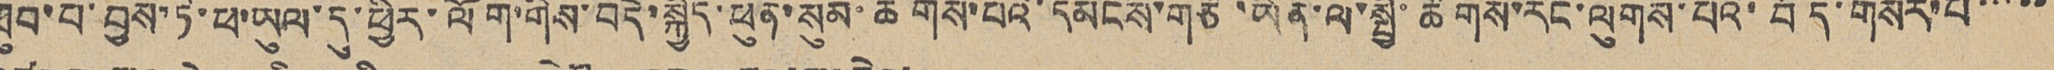ཐུབ་པ་བྱས་ཏེ་ཕ་ཡུལ་དུ་ཕྱིར་ལོག་གིས་བདེ་སྐྱིད་ཕུན་སུམ་ཚོགས་པའི་དམངས་གཙོ་ཡིན་ལ་སྤྱི་ཚོགས་རིང་ལུགས་པའི་བོད་གསར་པ་་་་་
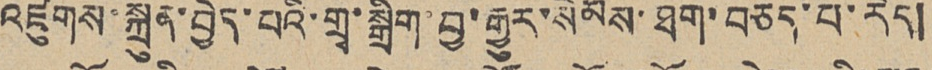འཛུགས་སྐྲུན་བྱེད་པའི་གྲྭ་སྒྲིག་བྱ་རྒྱུར་སེམས་ཐག་བཅད་པ་རེད།
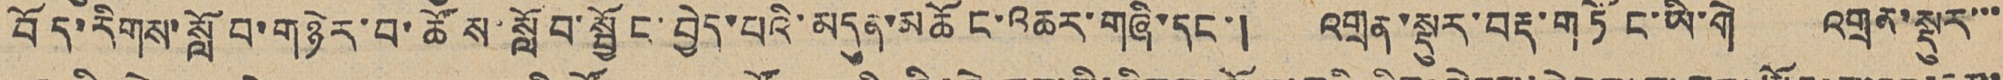བོད་རིགས་སློབ་གཉེར་བ་ཚོས་སློབ་སྦྱོང་བྱེད་པའི་མདུན་མཆོང་འཆར་གཞི་དང་། འགྲན་སྡུར་བརྡ་གཏོང་ཡི་གེ འགྲན་སྡུར་་་
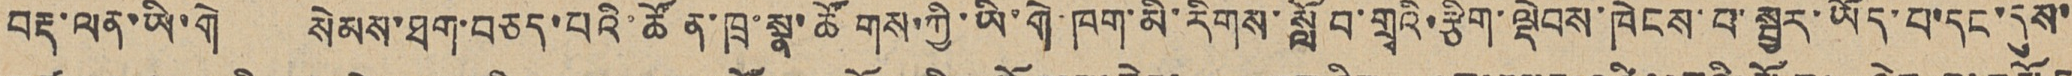བརྡ་ལན་ཡི་གེ སེམས་ཐག་བཅད་པའི་ཚོན་ཁྲ་སྣ་ཚོགས་ཀྱི་ཡི་གེ་ཁག་མི་རིགས་སློབ་གྲྭའི་རྩིག་ལྡེབས་ཁེངས་པ་སྦྱར་ཡོད་པ་དང་དུས་
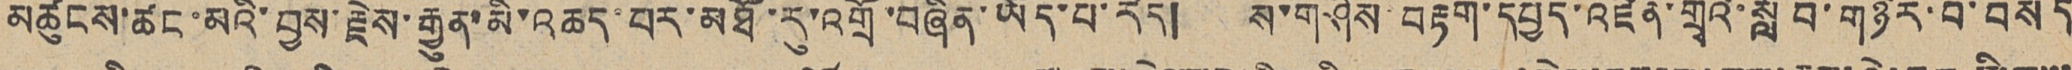མཚུངས་ཚང་མའི་བྱས་རྗེས་རྒྱུན་མི་འཆད་པར་མཐོ་རུ་འགྲོ་བཞིན་ཡོད་པ་རེད། ས་གཤིས་བརྟག་དཔྱད་འཛིན་གྲྭའི་སློབ་གཉེར་བ་བསོད
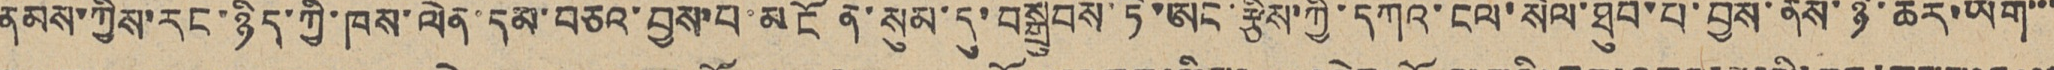ནམས་ཀྱིས་རང་ཉིད་ཀྱི་ཁས་ལེན་དམ་བཅའ་བྱས་པ་མངོན་སུམ་དུ་བསྒྲུབས་ཏེ་ཨང་རྩིས་ཀྱི་དཀའ་ངལ་སེལ་ཐུབ་པ་བྱས་ནས་ཉེ་ཆར་ཡིག་་་
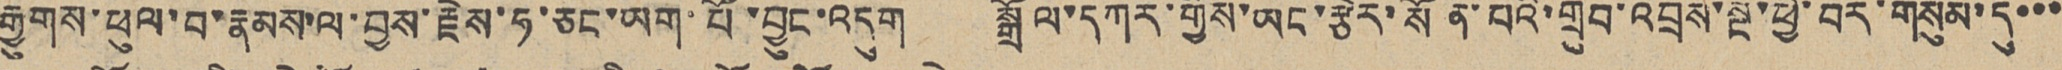རྒྱུགས་ཕུལ་བ་རྣམས་ལ་བྱས་རྗེས་ཧ་ཅང་ཡག་པོ་བྱུང་འདུག སྒྲོལ་དཀར་གྱིས་ཡང་རྩེར་སོན་པའི་གྲུབ་འབྲས་སྔ་ཕྱི་བར་གསུམ་དུ་་་
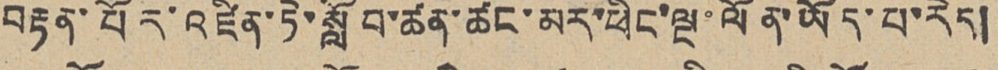བརྟན་པོར་འཛིན་ཏེ་སློབ་ཚན་ཚང་མར་ཕིང་ལྔ་ལོན་ཡོད་པ་རེད།
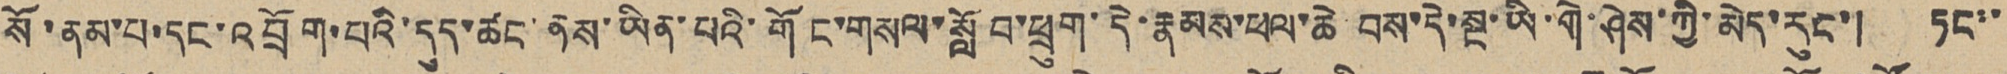སོ་ནམ་པ་དང་འབྲོག་པའི་དུད་ཚང་ནས་ཡིན་པའི་གོང་གསལ་སློབ་ཕྲུག་དེ་རྣམས་ཕལ་ཆེ བས་དེ་སྔ་ཡི་གེ་ཤེས་ཀྱི་མེད་རུང་། ཏང་་
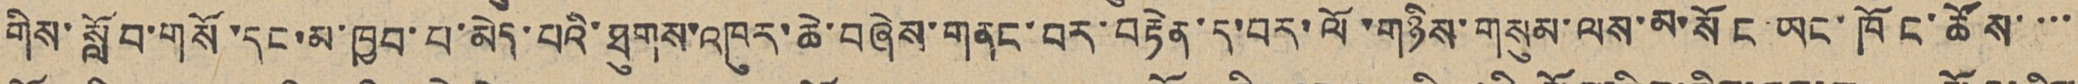གིས་སློབ་གསོ་དང་མ་ཁྱབ་པ་མེད་པའི་ཐུགས་འཁུར་ཆེ་བཞེས་གནང་བར་བརྟེན་ད་བར་ལོ་གཉིས་གསུམ་ལས་མ་སོང་ཡང་ཁོང་ཚོས་་་་
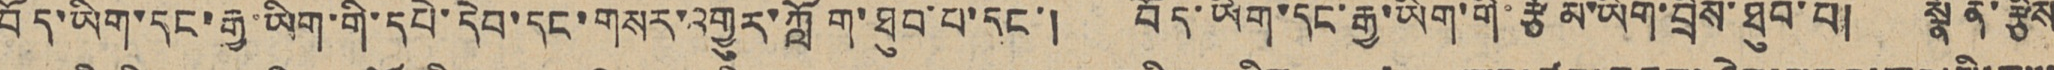བོད་ཡིག་དང་རྒྱ་ཡིག་གི་དཔེ་དེབ་དང་གསར་འགྱུར་ཀློག་ཐུབ་པ་དང་། བོད་ཡིག་དང་རྒྱ་ཡིག་གི་རྩོམ་ཡིག་བྲིས་ཐུབ་པ། སྣོན་རྩིས
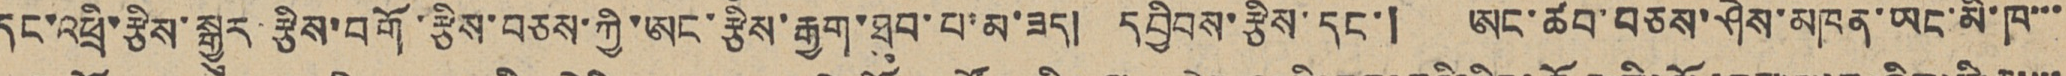དང་འཕྲི་རྩིས་སྒྱུར་རྩིས་བགོ་རྩིས་བཅས་ཀྱི་ཨང་རྩིས་རྒྱག་ཐུབ་པ་མ་ཟད། དབྱིབས་རྩིས་དང་། ཨང་ཚབ་བཅས་ཤེས་མཁན་ཡང་མི་ཁ་་་
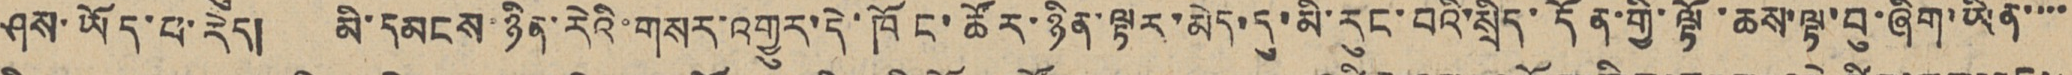ཤས་ཡོད་པ་རེད། མི་དམངས་ཉིན་རེའི་གསར་འགྱུར་དེ་ཁོང་ཚོར་ཉིན་ལྟར་མེད་དུ་མི་རུང་བའི་སྲིད་དོན་གྱི་ལྟོ་ཆས་ལྟ་བ་ཞིག་ཡིན་་་་
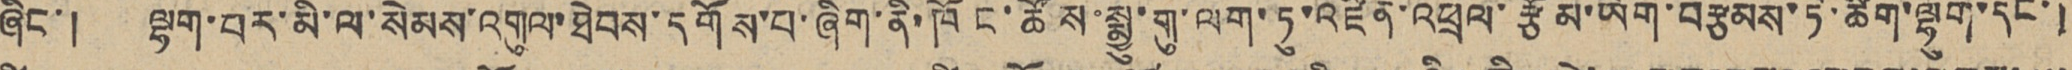ཞིང་། ལྷག་པར་མི་ལ་སེམས་འགུལ་ཐེབས་དགོས་པ་ཞིག་ནི་ཁོང་ཚོས་སྨྱུ་གུ་ལག་ཏུ་འཛིན་འཕྲལ་རྩོམ་ཡིག་བརྩམས་ཏེ་ཚིག་ལྷུག་དང་།
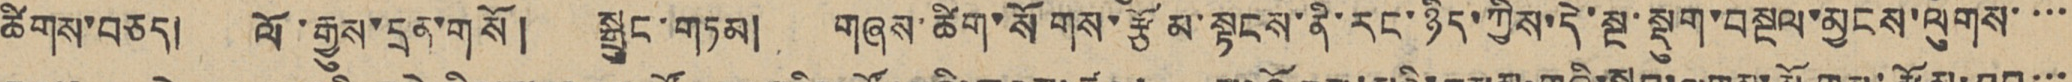ཚིགས་བཅད། ལོ་རྒྱུས་དྲན་གསོ། སྒྲུང་གཏམ། གཞས་ཚིག་སོགས་རྩོམ་སྟངས་ནི་རང་ཉིད་ཀྱིས་དེ་སྔ་སྡུག་བསྔལ་མྱངས་ལུགས་་་་
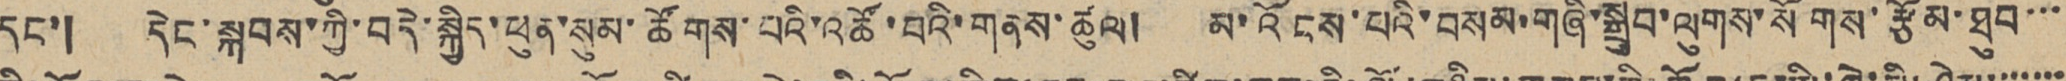དང་། དེང་སྐབས་ཀྱི་བདེ་སྐྱིད་ཕུན་སུམ་ཚོགས་པའི་འཚོ་བའི་གནས་ཚུལ། མ་འོངས་པའི་བསམ་གཞི་སྒྲུབ་ལུགས་སོགས་རྩོམ་ཐུབ་་་
